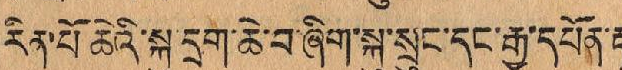རིན་པོ ཆེའི་སྐུ་དྲག་ཆེ་བ་ཞིག་སྐུ་སྲུང་དང་རྒྱ་དཔོན་རྟ་
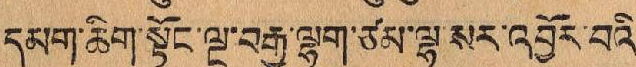དམག་ཆིག་སྟོང་ལྔ་བརྒྱ་ལྷག་ཙམ་ལྷ་སར་འབྱོར་བའི་
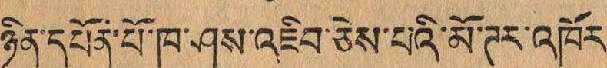ཉིན་དཔོན་པོ་ཁ་ཤས་འཇིབ་ཅེས་པའི་མོ་ཊར་འཁོར་
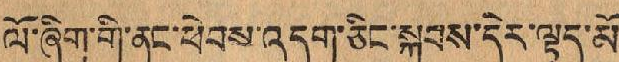ལོ་ཞིག་གི་ནང་ཕེབས་འདུག་ཅིང་སྐབས་དེར་ལྟད་མོ་
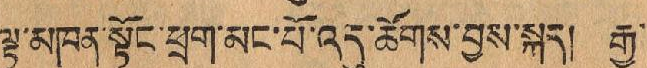ལྟ་མཁན་སྟོང་ཕྲག་མང་པོ་འདུ་ཚོགས་བྱས་སྐད། རྒྱ་
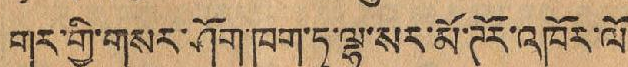གར་གྱི་གསར་ཤོག་ཁག་ཏུ་ལྷ་སར་མོ་ཊོར་འཁོར་ལོ་
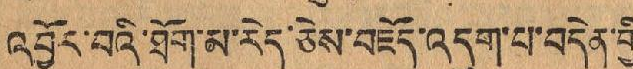འབྱོར་བའི་ཐོག་མ་རེད་ཅེས་བཇོད་འདུག་པ་བདེན་གྱི་
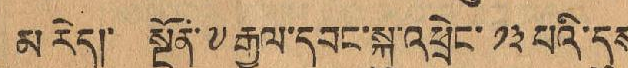མ་རེད། སྔོན་༸རྒྱལ་དབང་སྐུ་འཕྲེང་༡༣ པའི་དུས་
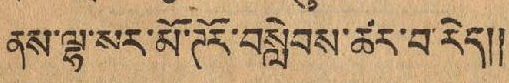ནས་ལྷ་སར་མོ་ཊོར་བསླེབས་ཚར་བ་རེད།།
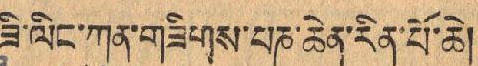ཟི་ལིང་ཀུན་གཟིགས་པཎ་ཆེན་རིན་པོ་ཆེ།
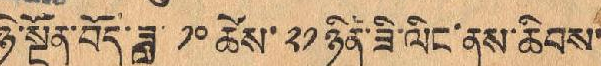ཉི་སྔོན་བོད་ཟླ་ ༡༠ ཚེས་ ༢༡ ཉིན་ཟི་ལིང་ནས་ཆིབས་
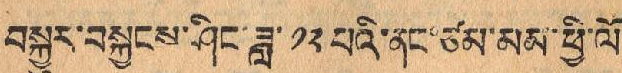བསྐྱུར་བསྐྱངས་ཤིང་ཟླ་ ༡༢ པའི་ནང་མམ་ཕྱི་ལོ་
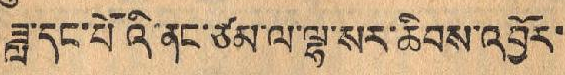ཟླ་དང་པོའི་ནང་ཙམ་ལ་ལྷ་སར་ཆིབས་འབྱོར་
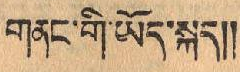གནང་གི་ཡོད་སྐད།།
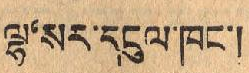ལྷ'སར་དངུལ་ཁང་།
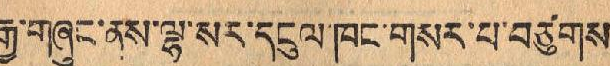རྒྱ་གཞུང་ནས་ལྷ་སར་དངུལ་ཁང་གསར་པ་བཙུགས་
